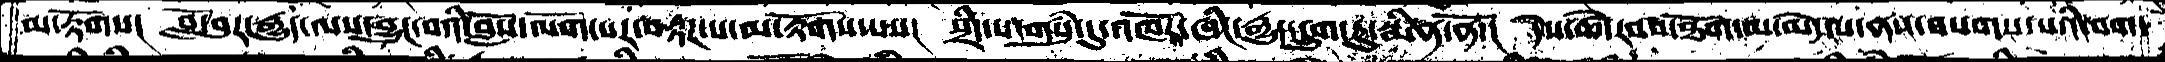མ་རྟོགས།  བློ་བུར་རྒྱུད་ལས་བྱུང་བའི་བློས་ལོག་པར་བརྟཌ་པ་མ་རྟོགས་པས།  སྲིད་པ་གསུཾ་དུ་འཁོར་ཞིང་རྒྱུད་དྲུག་ཏུ་སྨིན་ནོ་།  དེས་ཚེ་རབས་ཐོག་མ་མེད་པ་ནས་བསགས་པའི་བག་
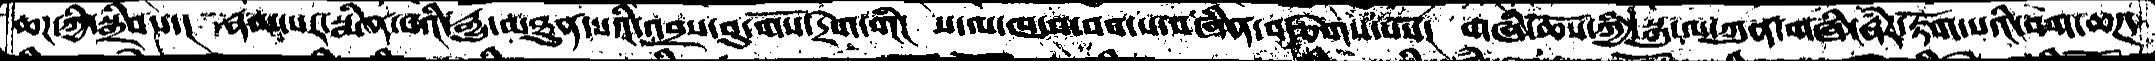ཆཌ་ཀྱི་སྒྲིབས་།  རྣམ་པར་སྨིན་པའི་རྒྱུ་མཐུན་པའི་འབྲས་བུ་གོས་དྲེག་གི།  ས་ལ་ཁ་བ་བབ་པ་བཞིནབརྩེགས་པས།  གཞི་ཆོས་ཀྱི་སྐུ་ལ་ཀུན་གཞི་རྣཾར་རྟོག་པའི་བག་ཆཌ་
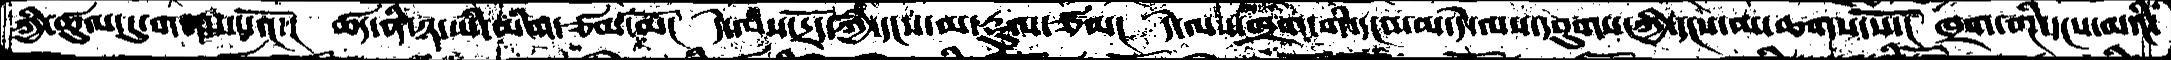ཀྱི་ཚུལ་དུ་གནས་པའོ་།   ཚད་ནི་ཉ་ཡི་མིག་ཙམ་མོ།  དེ་བས་དྲོད་ཀྱི་དངས་མ་རྡུལ་ཙམ།  དེ་ལས་ཁྲག་གི་དངས་མ་དེ་ལས་དབུགས་ཀྱི་དངས་མ་ཆགས་སོ་།  ཁྲག་གི་དངས་མའི་
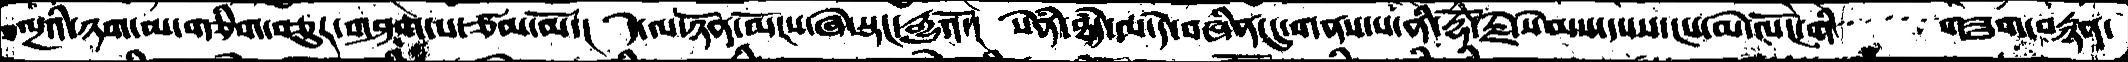ལྔའི་ཉག་མ་གཅིག་བཅུར་གཤག་པ་ཙམ་མོ་།  དེ་ལ་ཉོན་མོངས་ཞེ་སྡང་རྒྱུའོ་།  སེཾན་ཐཾད་ལ་དེ་བཞིན་དུ་གནས་པ་ནི་རྡོ་རྗེ་སེམས་དཔས་ངས་མེ་ལོང་གི་   གཟུགས་བརྙན་
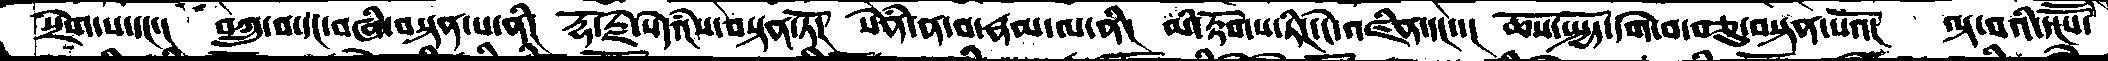སྲེག་པ་དང་།  བཀྲུ་བ་དང་བཞི་བསྟན་པ་ནི།  རྡོ་རྗེ་སེཾདའས་བསྟན་ཏོ།  སེནཾ་ན་བ་རྣམ་ལ་ནི།  མི་རྟོགས་ཏིང་ངེ་འཛིན་དང་་།  ཆོས་སྤྱོད་དགེ་བ་བཅུ་བསྟན་པའོ།  ལྟ་བའི་དངཽས་
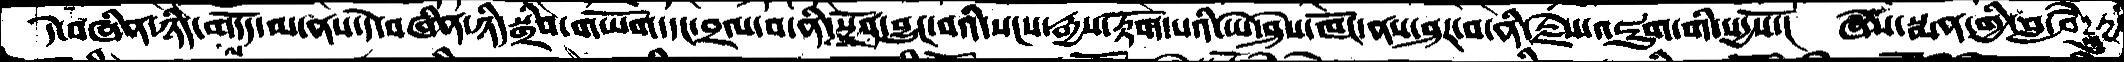དེ་བཞིན་ཉིད་གོདད་མ་ནས་དེ་བཞིན་ཉིད་སྒྲིབ་གཡོག་དང་བྲལ་བ་ནི་སྔོན་བྱུང་བའི་སངས་རྒྱས་རྟོག་པའི་ཡེ་ཤེས་ཁོང་ནས་ཤར་བ་ནི་རྗེས་འཇུག་གི་སདྱསོ་།  ཞེས་སྨན་གྱི་བླ་བཻཌཱུརྱ་
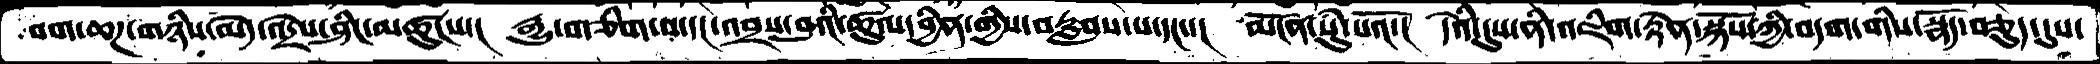བག་ཆཌ་གཉིས་མེད་འདྲེས་ཤིང་མཚུངས་།  རྒྱུ་གཅིག་པ་དང་འབྲས་བུའི་ཚུལ་བྱིན་གྱིས་བརླབས་པ་དང་་།  མངོན་སུཾ་པའོ་།  དེའི་དུས་ནི་འཇིག་རྟེན་སྐོས་ཀྱི་བདག་གིས་སྣོད་བཅུད་དུས་
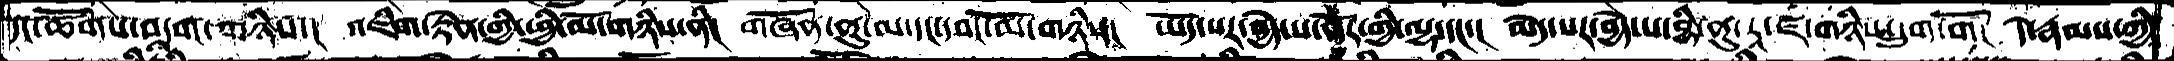དང་ཚོགས་བདག་གཉིས་།  འཇིག་རྟེན་གྱི་ཕྱི་མོ་གཉིས་ནི།  གཞོན་ནུ་མ་དང་དབང་མོ་གཉིས།  ཡོད་པར་བྱེད་པ་ནོར་གྱི་ལྷ་དང་།  མེད་པར་བྱེད་པ་བྷི་ནུ་རཱ་ཛ་གཉིས་དྲུག་གོ།  དེ་རྣམས་ཀྱི་
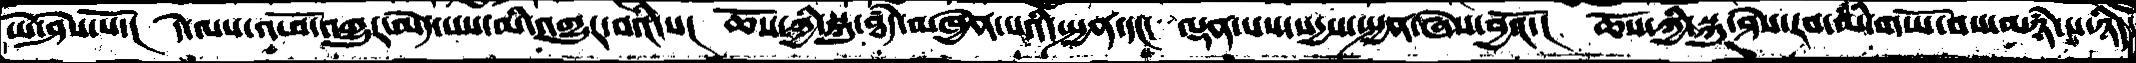ཡེ་ཤེས་སོ་།  དེ་ལས་འཕོ་འགྱུར་མེད་པས་མི་འགྱུར་བའི་ས།  ཆོས་ཀྱི་སྐུ་ཐཾད་མཁྱེན་པའི་སྤྱན་དང་  ལྡན་པས་སདྱས་སྤྱན་ཞེས་བྱའོ་།  ཆོས་ཀྱི་སྐུ་ཤེས་རབ་མི་གཡོ་བས་མཉཾ་པ་ཉིད་
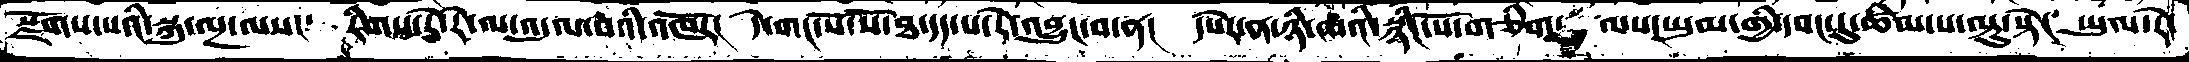སྫོགས་པའི་སྐུ་ལྔ་ལས།  རིགས་རེ་རེ་ལ་འདུལ་བའི་འཁོར།  དེ་གང་སོ་སོ་ཐ་དད་པ་རེ་འབྱུང་བ་ན།  དཔེར་ན་ཉི་མའི་སྙིང་པོ་གཅིག་ལས་ཡུམ་གྱིདབང་དུ་ཚིམ་པ་ལྟུ་སྟེ་།  ཡུལ་རེ་
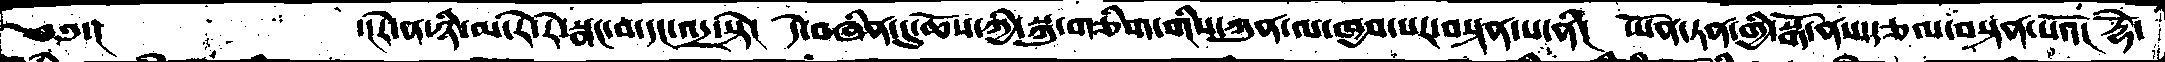༄༅་།        ་།རེ་ན་ཉི་མ་རེ་རེ་སྣང་བ་དང་འདྲ་སྟེ།  དེ་བཞིན་དུ་ཆོས་ཀྱི་སྐུ་གཅིག་གིས་ཀུན་ལ་ཁྱབ་པར་བསྟན་པ་ནི།  ཡོན་ཏན་གྱི་སྒོ་ནས་རྩལ་བསྟན་པའོ།  རྡོེ་
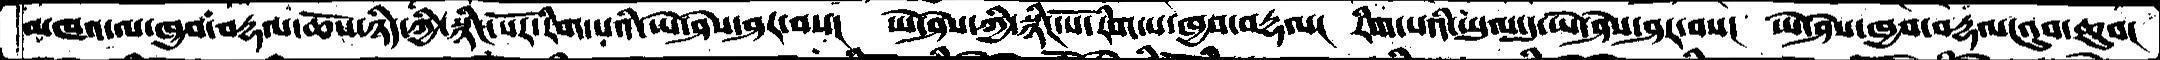མཁའ་ལ་ཁྱབ་བརྡལ་ཆོས་ཉིད་ཀྱི་སྙིང་པོར་རིག་པའི་ཡེ་ཤེས་ཤར་བས།  ཡེ་ཤེས་ཀྱི་སྙིང་པོ་རིག་པ་ཁྱབ་བརྡལ།  རིག་པའི་ཡུལ་དུ་ཡེ་ཤེས་ཤར་བས།  ཡེ་ཤེས་ཁྱབ་བརྡལ་འུབ་ཆུབ་
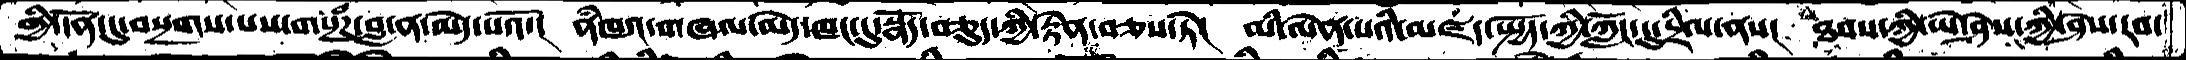གྱི་དོན་དུ་བསྔགས་པས་གསྔཾཌ་བླ་ན་མེད་པའོ་།  ནཾཁའ་གཞལ་མེད་ཁང་དུ་སྣོད་བཅུད་ཀྱི་རྟེན་བཅས་ཏེ།  མི་ལེན་པའི་མཛད་སྤྱོད་ཀྱི་ཀློང་དུ་དྲིལ་ནས།   ཐབས་ཀྱི་ཡེ་ཤེས་ཀྱི་ཤེས་རབ་
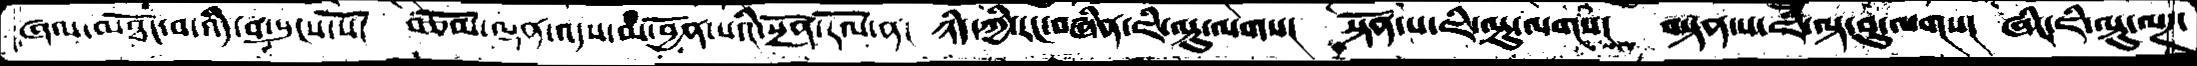ཞལ་མཐོང་བ་འདི་གསུངས་སོ།  བཅོམ་ལྡན་འདས་མ་བྱོན་པའི་སྔོན་རོལ་ན།  ཉིད་ཀྱི་རང་བཞིན་ཇི་ལྟུ་ལགས།  སྟོན་པ་ཇི་ལྟུ་ལགས།  བསྟན་པ་ཇི་ལྟ་བུ་ལགས།  ཞིང་ཇི་ལྟུ་ལཌ་
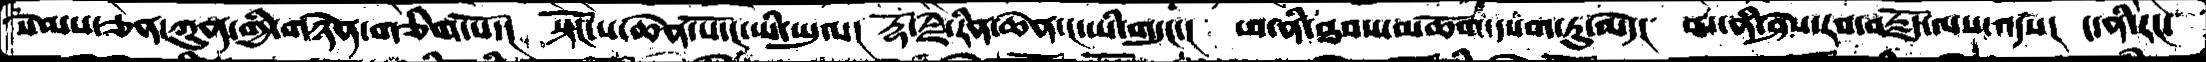སེམས་ཅན་ཀུན་གྱི་གཉེན་གཅིག་པོ་།  སྟོང་པ་ཆེན་པོ་ང་ཡི་ཡུལ།  རྡོ་རྗེ་རིན་ཆེན་ང་ཡི་གདུང་།  ཕ་ནི་ཐབས་མཆོག་དཔག་ཏུ་མེད།  མ་ནི་ཤེས་རབ་བརྗོད་ལས་འདས།  ང་ནིརང་
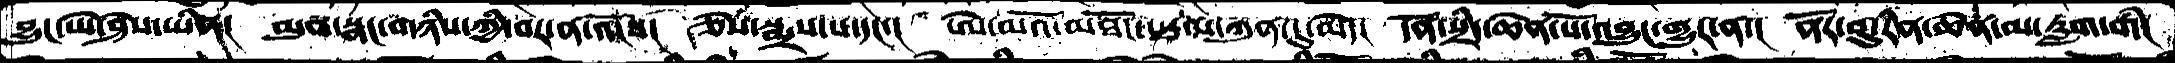བྱུང་ཡེ་ཤེས་ཡིན།  ལུས་སྣང་གཉིས་ཀྱི་བར་ན་འོངས།  ཅེས་སྨྲས་པ་དང་།  ཨེ་མའོ་མཐོང་རྩལ་ཀུན་དུ་མེད།  དོན་སྲིད་ཆེན་པོ་འབྱུང་གྱུར་ན་།  ནོར་བུ་རིན་ཆེན་མ་རླག་གི།
